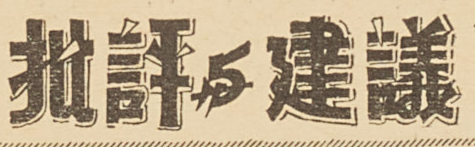批評 建議
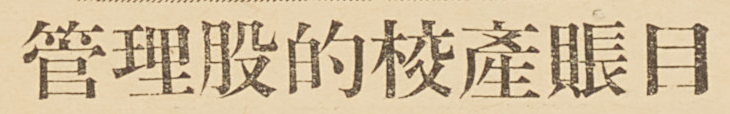管理股的校產賬目
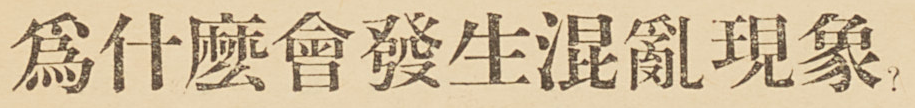爲什麼會發生混亂現象
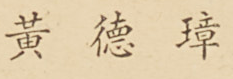黃 德 璋
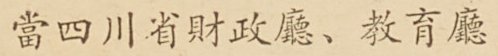當四川省財政廳、教育廳
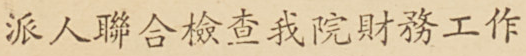派人聯合檢查我院財務工作
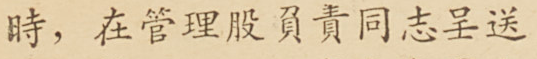時，在管理股負責同志呈送
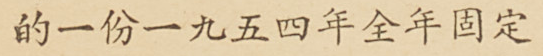的一份一九五四年全年固定
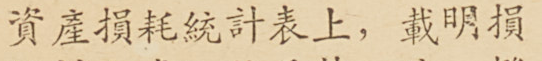資產損耗統計表上，載明損
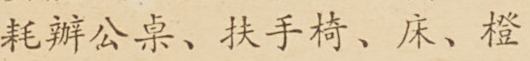耗辦公桌、扶手椅、床、橙
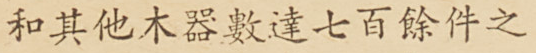和其他木器數達七百餘件之
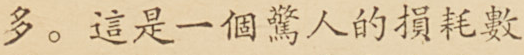多。這是一個驚人的損耗數
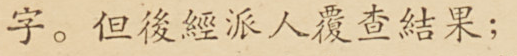字。但後經派人覆查結果；
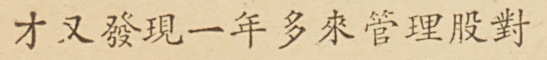才又發現一年多來管理股對
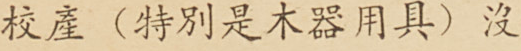校產（特別是木器用具）沒
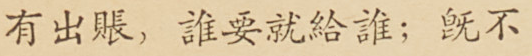有出賬，誰要就給誰；旣不
